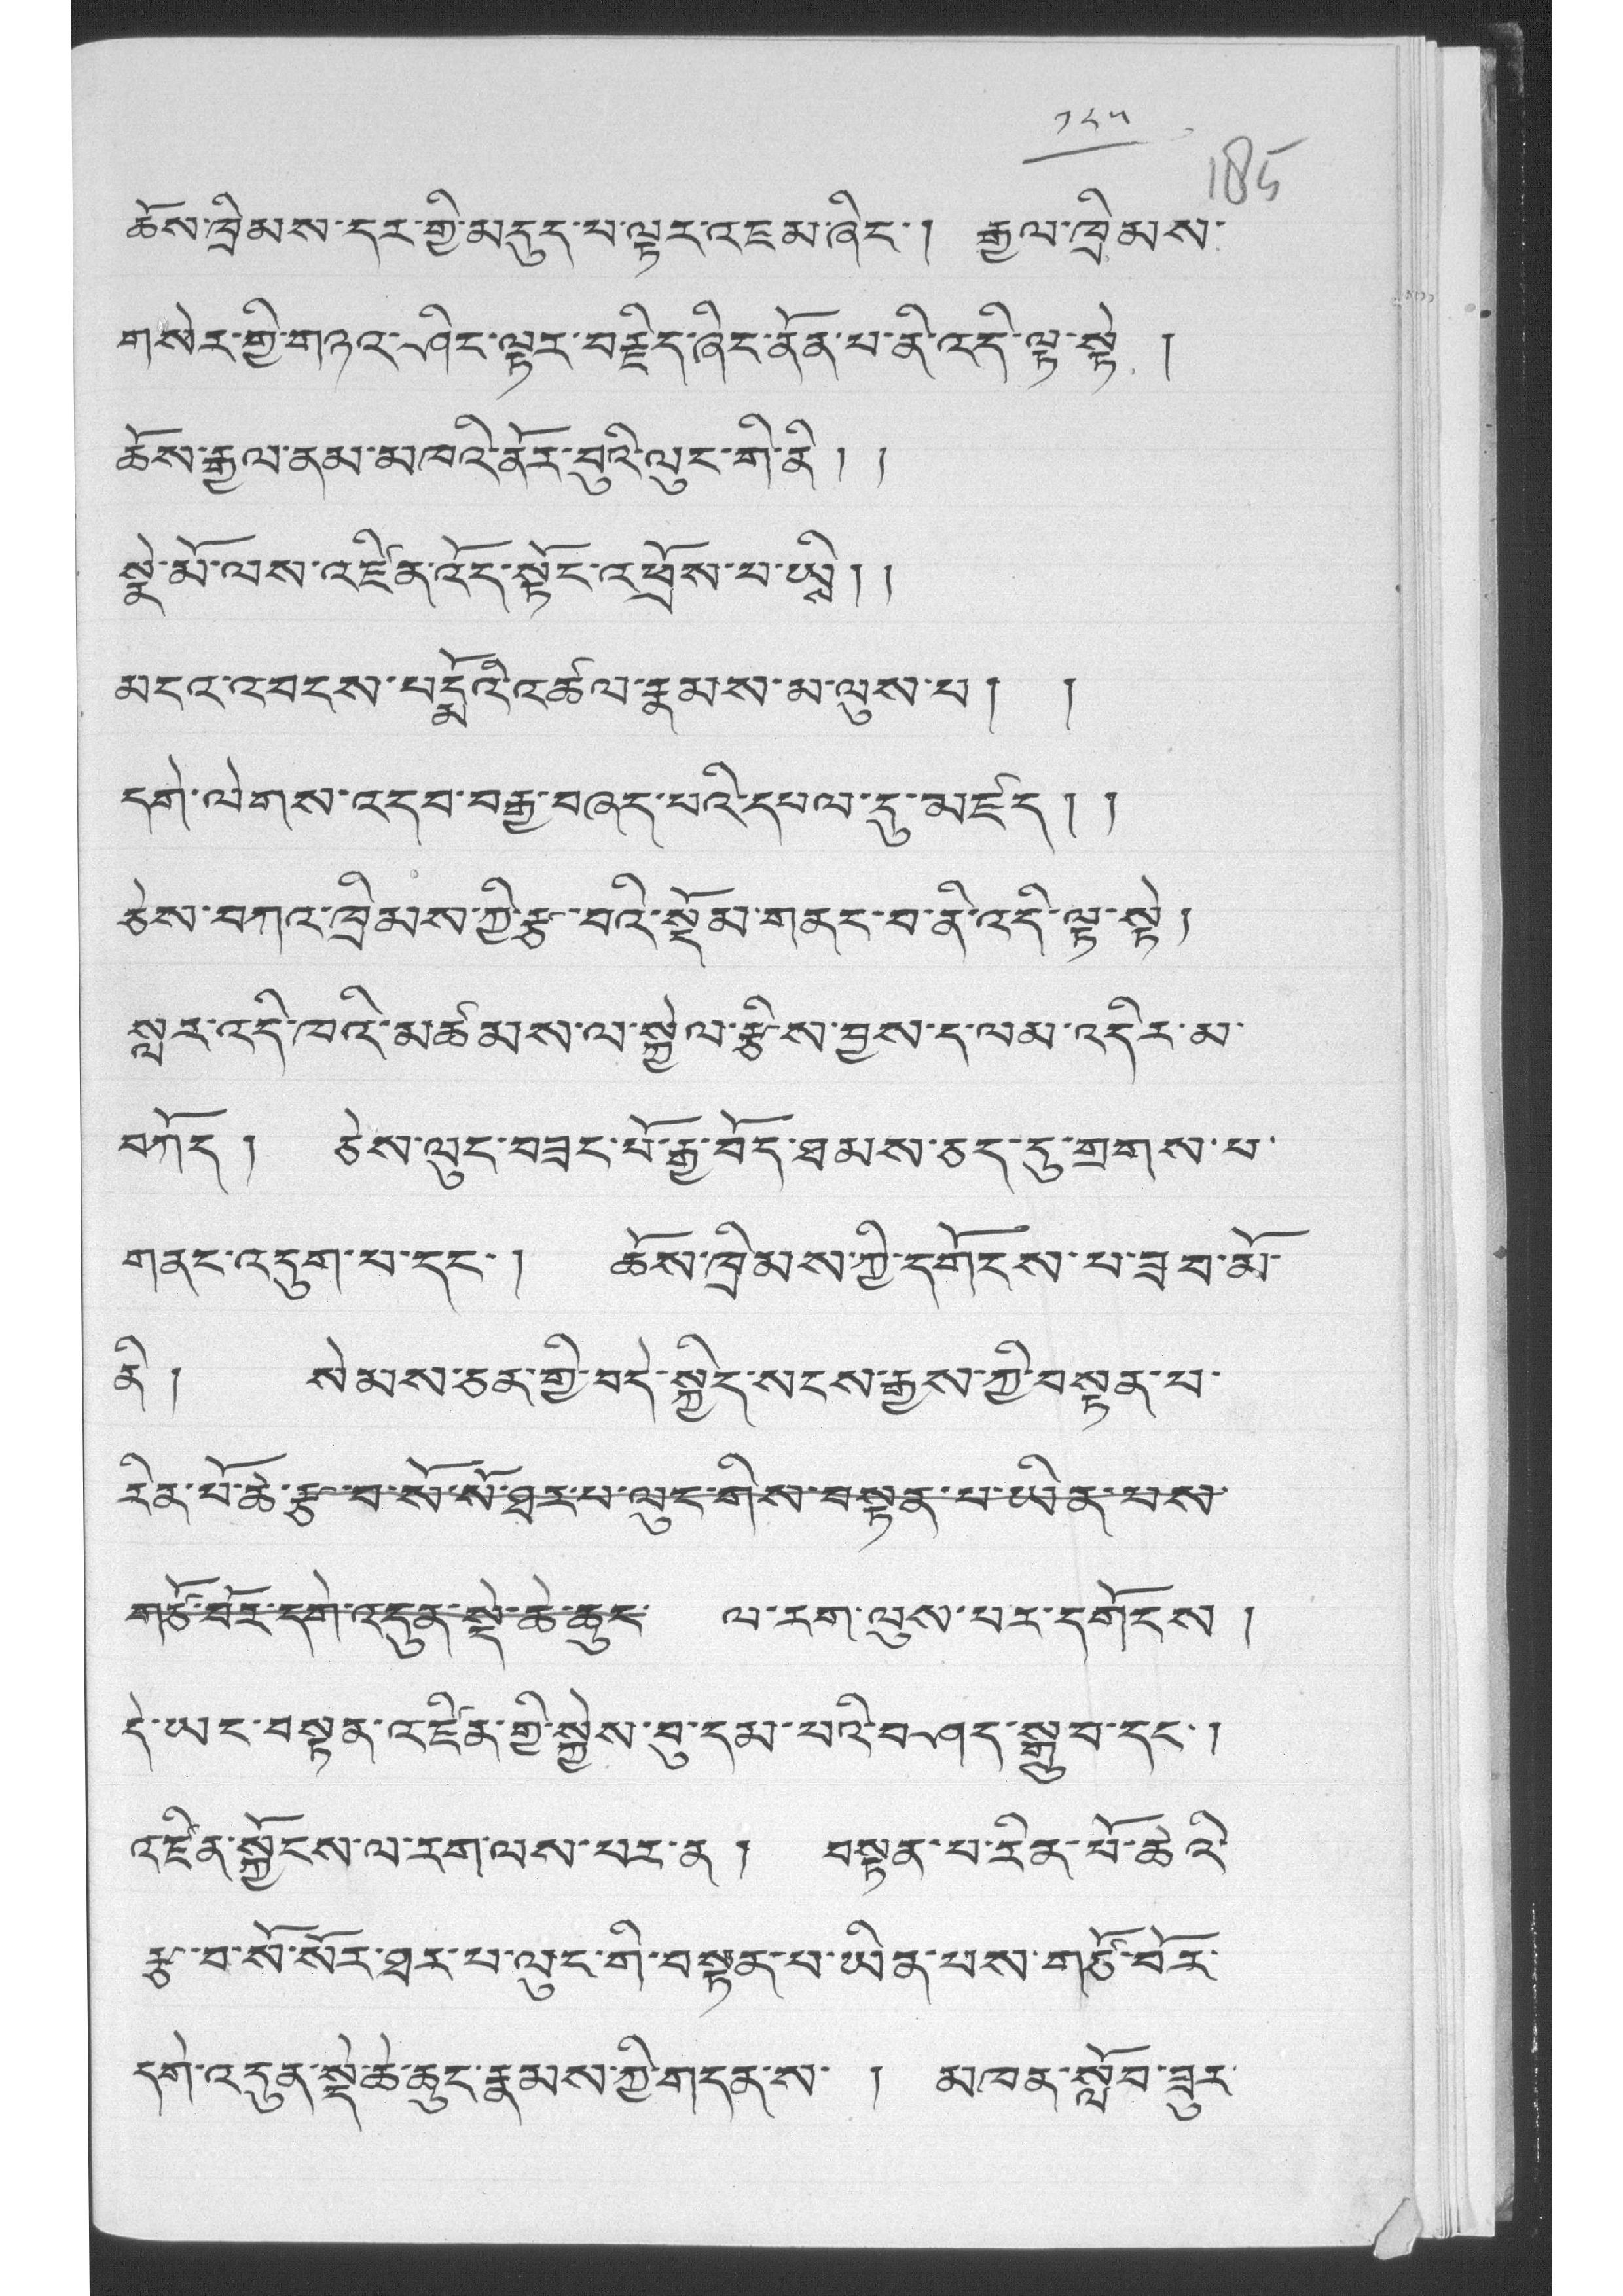༡༨༥
ཆོས་ཁྲིམས་དར་གྱི་མདུད་པ་ལྟར་འཇམ་ཞིང་། རྒྱལ་ཁྲིམས་
གསེར་གྱི་གཉའ་ཤིང་ལྟར་བརྗིད་ཞིང་ནོན་པ་ནི་འདི་ལྟ་སྟེ །
ཆོས་རྒྱལ་ནམ་མཁའི་ནོར་བུའི་ལུང་གི་ནི།།
སྣེ་མོ་ལས་འཛིན་འོད་སྟོང་འཕྲོས་པ་ཡིས།།
མངའ་འབངས་པདྨོའི་འཚལ་རྣམས་མ་ལུས་པ། །
དགེ་ལེགས་འདབ་བརྒྱ་བཞད་པའི་དཔལ་དུ་མཛད།།
ཅེས་བཀའ་ཁྲིམས་ཀྱི་རྩ་བའི་སྡོམ་གནང་བ་ནི་འདི་ལྟ་སྟེ།
སླར་འདི་ཁའི་མཚམས་ལ་སྐྱེལ་རྩིས་བྱས་ད་ལམ་འདིར་མ་
བཀོད། ཅེས་ལུང་བཟང་པོ་རྒྱ་བོད་ཐམས་ཅད་དུ་གྲགས་པ་
གནང་འདུག་པ་དང་། ཆོས་ཁྲིམས་ཀྱི་དགོངས་པ་ཟབ་མོ་
ནི། སེམས་ཅན་གྱི་བདེ་སྐྱིད་སངས་རྒྱས་ཀྱི་བསྟན་པ་
རིན་པོ་ཚེ་རྩ་བ་སོ་སོ་ཐར་པ་ལུད་གིས་བསྟན་པ་ཡིན་པས་
གཙོ་བོར་དགེ་འདུན་སྡེ་ཆེ་ཆུང་ ལ་རག་ལུས་པར་དགོངས །
དེ་ཡང་བསྟན་འཛིན་གྱི་སྐྱེས་བུ་དམ་པའི་བཤད་སྒྲུབ་དང་།
འཛིན་སྐྱོངས་ལ་རག་ལས་པར་ན། བསྟན་པ་རིན་པོ་ཆེའི་
རྩ་བ་སོ་སོར་ཐར་པ་ལུང་གི་བསྟན་པ་ཡིན་པས་གཙོ་བོར་
དགེ་འདུན་སྡེ་ཆེ་ཆུང་རྣམས་ཀྱི་གདན་ས་ ། མཁན་སློབ་ཟུར་
